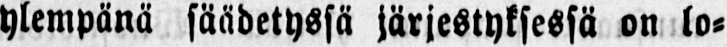ylempänä säädetyssä järjestyksessä on lo-
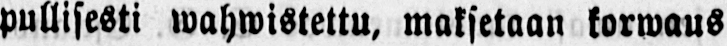pullisesti wahwistettu, maksetaan korwaus
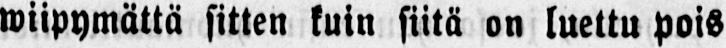wiipymättä sitten kuin siitä on luettu pois
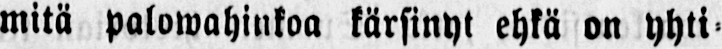mitä palowahinkoa kärsinyt ehkä on yhti-
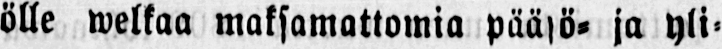ölle welkaa maksamattomia pääsö- ja yli-
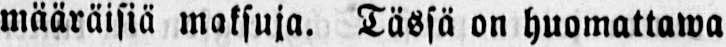määräisiä maksuja. Tässä on huomattawa
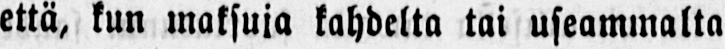että, kun maksuja kahdelta tai useammalta
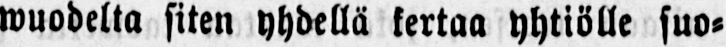wuodelta siten yhdellä kertaa yhtiölle suo-
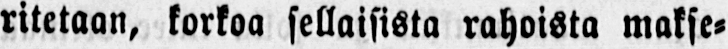ritetaan, korkoa sellaisista rahoista makse-
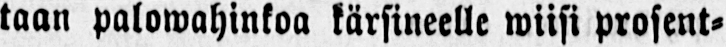taan palowahinkoa kärsineelle wiisi prosent-
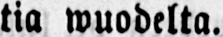tia wuodelta.
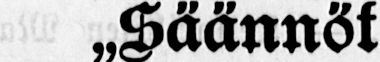„Säännöt
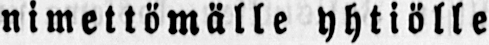nimettömälle yhtiölle
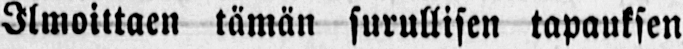Ilmoittaen tämän surullisen tapauksen
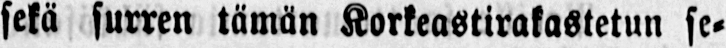sekä surren tämän Korkeastirakastetun se-
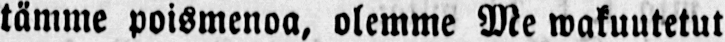tämme poismenoa, olemme Me wakuutetut
